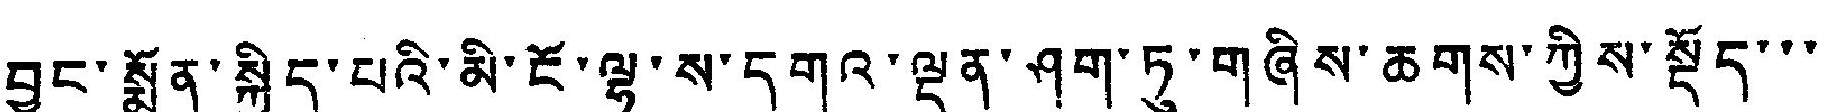བྱུང་སྨོན་སྐྱིད་པའི་མི་ངོ་ལྷ་ས་དགའ་ལྡན་ཤག་ཏུ་གཞིས་ཆགས་ཀྱིས་སྡོད་་་
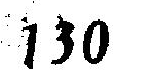130
